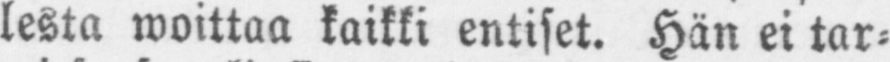lesta woittaa kaikki entiset. Hän ei tar-
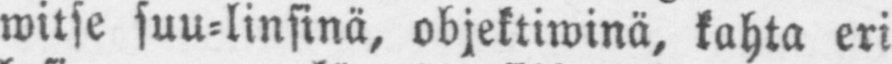witse suu-linsinä, objektiwinä, kahta eri
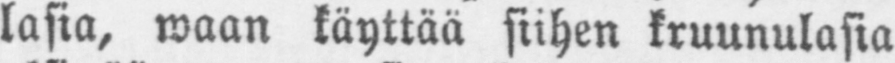lasia, waan käyttää siihen kruunulasia
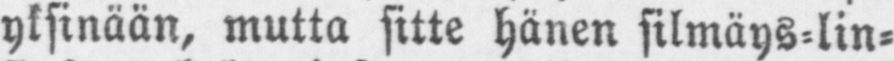yksinään, mutta sitte hänen silmäys-lin-
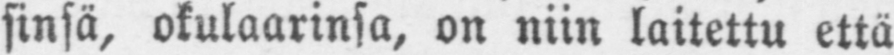sinsä, okulaarinsa, on niin laitettu että
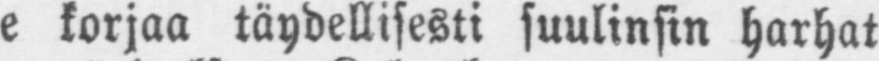se korjaa täydellisesti suulinsin harhat
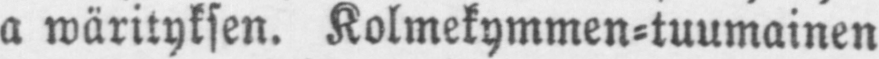ja wärityksen. Kolmekymmen-tuumainen
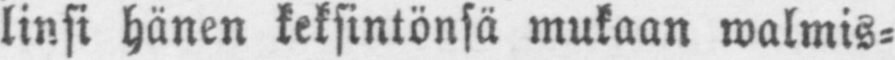linsi hänen keksintönsä mukaan walmis-
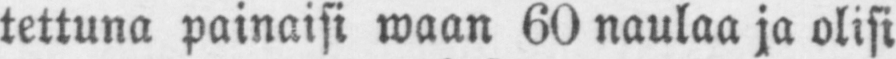tettuna painaisi waan 60 naulaa ja olisi
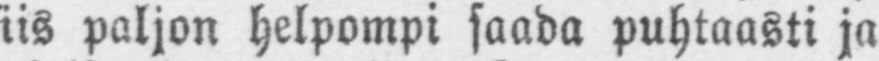siis paljon helpompi saada puhtaasti ja
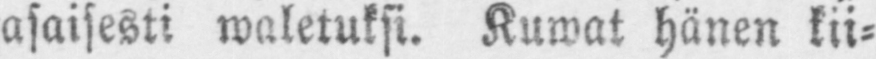tasaisesti waletuksi. Kuwat hänen kii-
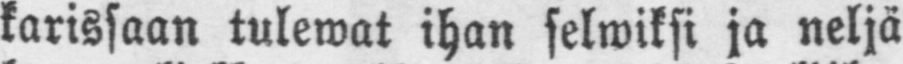karissaan tulewat ihan selwiksi ja neljä
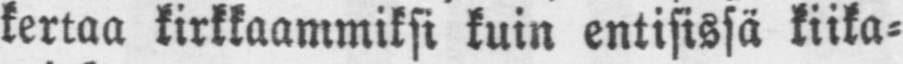kertaa kirkkaammiksi kuin entisissä kiika-
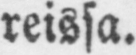reissa.
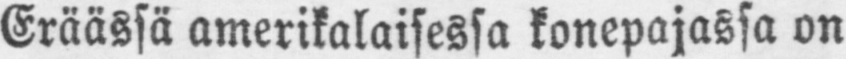Eräässä amerikalaisessa konepajassa on
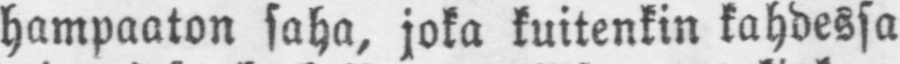hampaaton saha, joka kuitenkin kahdessa
